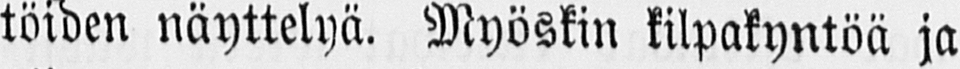töiden näyttelyä. Myöskin kilpakyntöä ja
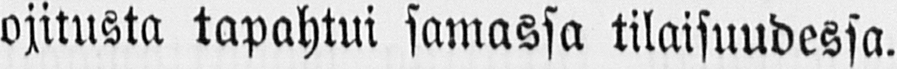ojitusta tapahtui samassa tilaisuudessa.
